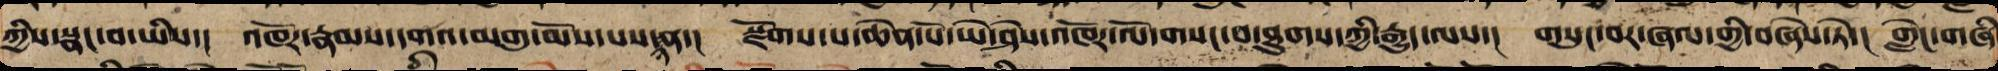ཀྱི་སྣང་བ་ཡིས་། འཁོར་རྣམས་དགའ་མགུ་མོས་པས་ཉན་། སྫོགས་པ་ཆེན་པོ་ཡེ་ཤེས་འཁོར་ལོ་གསང་བ་ཐུགས་ཀྱི་རྒྱུད་ལས་། གསུང་བར་ཞལ་གྱིས་བཞེས་ཏེ་། གླེང་གཞི
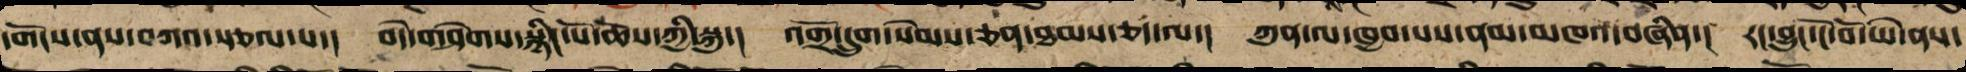དགོངས་ནས་བཀའ་སྩལ་པ་། བདེ་གཤེགས་སྙིང་པོ་ཆོས་ཀྱི་སྐུ་། འགྲོ་དྲུག་སེམས་ཅན་ཐམས་ཅད་ལ་། ཀུན་ལ་ཁྱབ་པས་ནམ་མཁའ་བཞིན་། རང་བྱུང་ངོ་བོ་ཡེ་ནས་
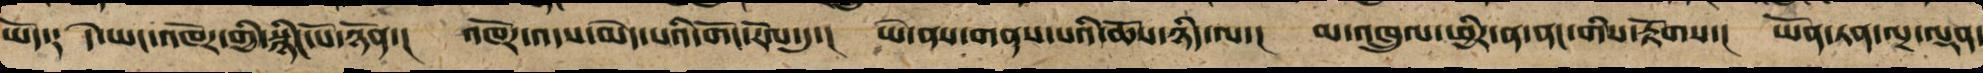ཡོད༑ དེ་ཡང་འཁོར་གྱི་སྙིང་པོ་ཉོན་། འཁོར་འདས་མེད་པའི་གོང་རོལ་དུ་། ཡེ་ནས་གནས་པའི་ཆོས་ཉིད་ལ་། མ་འཁྲུལ་ཕྱིར་ན་ངང་གིས་རྟོགས་། ཡོན་ཏན་ལྔ་ལྡན་
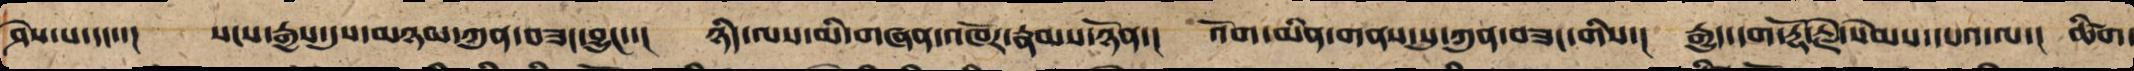ཤེས་པ་དང་་། སངས་རྒྱས་དུས་མཉམ་ཀུན་བཟང་བྱུང་་། ཉིད་ལས་མི་གཞན་འཁོར་རྣམས་བཅས་། འོག་མིན་གནས་སུ་ཀུན་བཟང་གིས་། རྒྱུད་དག་རྡོ་རྗེ་སེམས་དཔའ་ལ་། ཚིག་
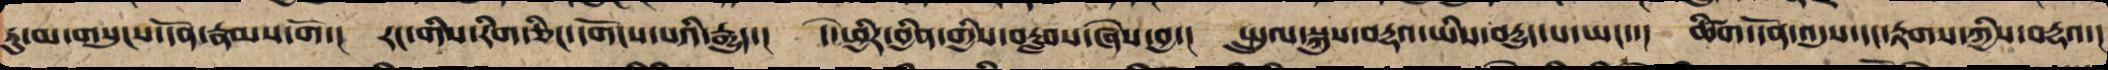ཏུ་མ་གསུངས་དོན་རྣམས་གོ་། རང་གིས་རིག་ཅིང་དགོངས་པས་བརྒྱུད་། དེ་ཕྱིར་བྱིན་གྱིས་བརླབས་ཞེས་བྱ་། སྤྲུལ་སྐུས་བརྡའ་ཡིས་བརྒྱུད་པ་ཡང་་། ཚིག་དོན་ལུས་དང་རྟགས་ཀྱི་བརྡའ་།
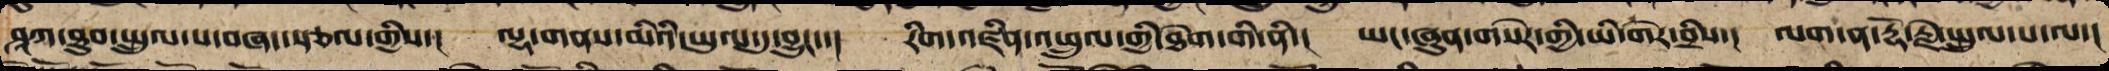ཤཱཀ་ཐུབ་སྤྲུལ་པ་བཞད་རྩལ་གྱིས་། ལྷ་གནས་མི་ཡི་ཡུལ་དུ་བྱུང་་། རིག་འཛིན་འཕྲུལ་གྱི་ཐེག་པ་ནི་། ཡང་ཞུན་གསེར་གྱི་ཡི་གེར་བྲིས་། ལག་ན་རྡོ་རྗེའི་སྤྲུལ་པ་ལ་།
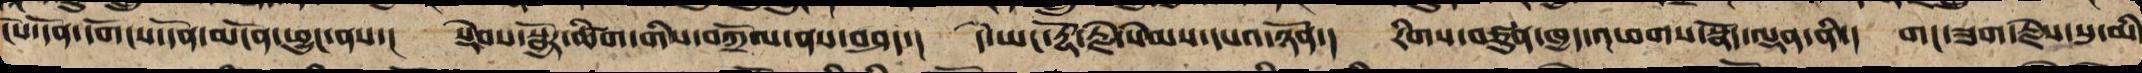ངེས་དོན་དགོངས་དོན་མངོན་ཕྱུང་ནས་། སྡེབ་སྦྱོར་ཚིག་གིས་བཀྲོལ་ནས་བཤད་། དེ་ཡང་རྡོ་རྗེ་སེམས་དཔའ་ཉོན་། རིགས་བཙུན་ཁྱད་འཕགས་སྣོད་ལྡན་ནི་། གང་ཟག་རྗེས་སུ་མི
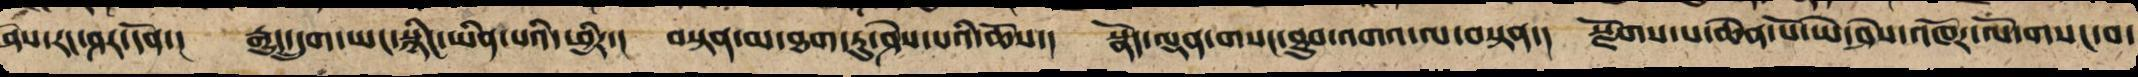ཤེས་རང་ཤར་དོན་། རྒྱུད་དྲུག་ཡང་སྙིང་ཡིན་པའི་ཕྱིར་། བསྟན་མ་ཐག་ཏུ་ཤེས་པའི་ཆོས་། སྣོད་ལྡན་གསང་ཐུབ་འགའ་ལ་བསྟན་། སྫོགས་པ་ཆེན་པོ་ཡེ་ཤེས་འཁོར་ལོ་གསང་བ་
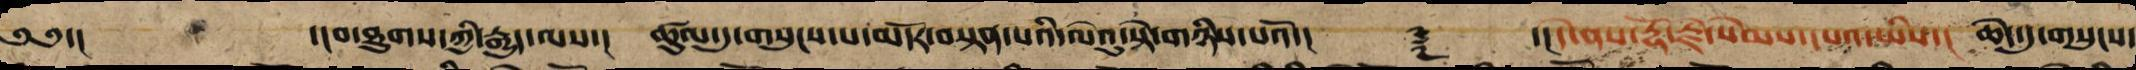༄༅་།  ་།ཐུགས་ཀྱི་རྒྱུད་ལས་།  ཚུལ་དུ་གསུངས་པ་མདོར་བསྟན་པའི་ལེའུ་སྟེ་གཉིས་པའོ་།། ༈ ་།དེ་ནས་རྡོ་རྗེ་སེམས་དཔའ་ཡིས་། ཆེད་དུ་གསུངས་
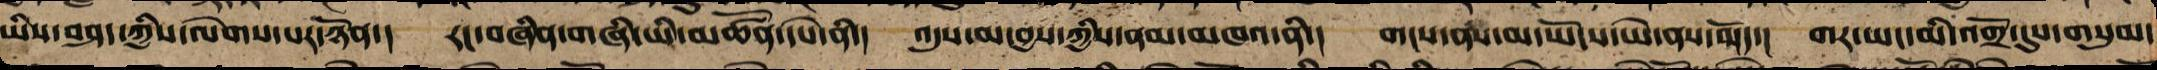ཡིས་བཤད་ཀྱིས་ངེས་པར་ཉོན་། རང་བཞིན་གཞི་ཡི་མཚོན་དཔེ་ནི་། འདུས་མ་བྱས་ཀྱི་ནམ་མཁའ་ནི་། གང་ནས་མ་འོངས་ཡེ་ནས་ཡོད་། གར་ཡང་མི་འགྲོ་དུས་གསུམ་
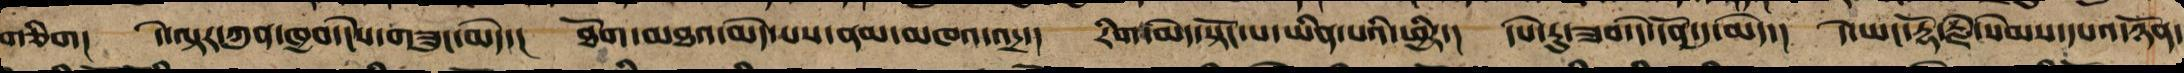གཅིག། དེ་ལྟར་ཀུན་ཁྱབ་ངོས་གཟུང་མེད་། ཐོག་མཐའ་མེད་པས་ནམ་མཁའ་འདྲ་། རིག་མེད་སྟོང་པ་ཡིན་པའི་ཕྱིར་། དཔེ་རུ་ཟབ་སྟེ་དོན་དུ་མེད་། དེ་ཡང་རྡོ་རྗེ་སེམས་དཔའ་ཉོན་
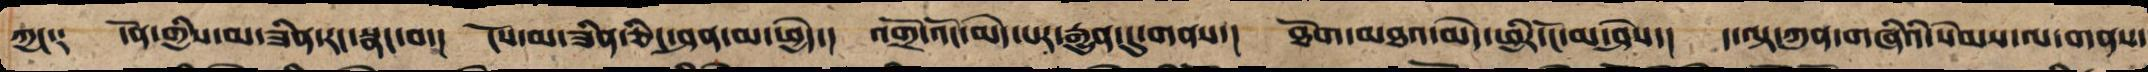ཀྱང༑ དོན་གྱིས་མ་ཟིན་རང་སྣང་བ་། ངོས་མ་ཟིན་ཅིང་ཤན་མ་ཕྱེད་། འགྲོ་འོང་མེད་པར་རྒྱུན་དུ་གནས་། ཐོག་མཐའ་མེད་ཕྱིར་ངོ་མ་ཤེས་། ད་ལྟ་ཀུན་གཞིའི་སེམས་ལ་གནས་
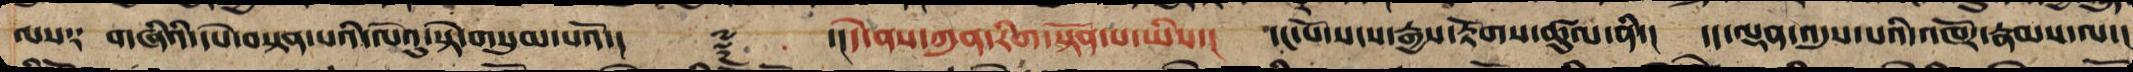ལས༑ གཞིའི་དཔེ་བསྟན་པའི་ལེའུ་སྟེ་གསུམ་པའོ་།། ༈ ་།།དེ་ནས་ཀུན་རིག་སྟོན་པ་ཡིས་། དང་པོ་སངས་རྒྱས་རྟོགས་ཚུལ་ནི་། དད་ལྡན་འདུས་པའི་འཁོར་རྣམས་ལ་།
